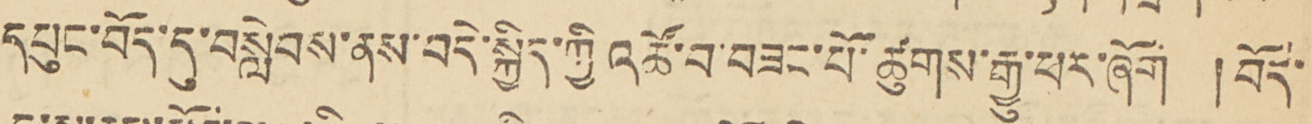དཔུང་བོད་དུ་བསླེབས་ནས་བདེ་སྐྱིད་ཀྱི འཚོ་བ་བཟང་ཕོ་ཚུགས་རྒྱུ་པར་ཞོག །བོད་
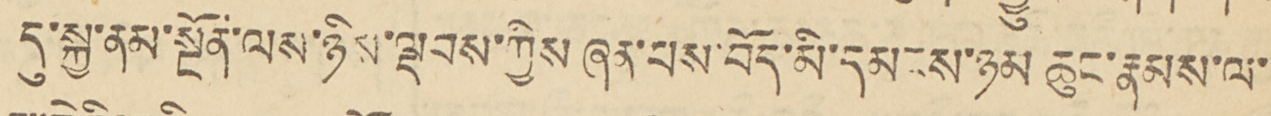དུ་སྐྱ་ནམ་སྔོན་ལས་ཉིས་ལྡབས་ཀྱིས ཞན་པས་བོད་མི་དམངས་ཉམ ཆུང་རྣམས་ལ་
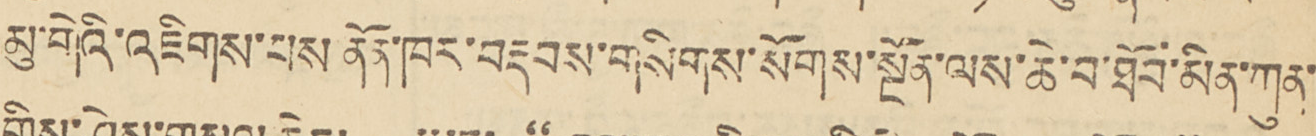མུ་གེའི་འཇིགས་པས ནོན་ཁར་བརྡབས་གསིགས་སོགས་སྔོན་ལས་ཆེ་བ་ཐོབ་མིན་ཀུན་
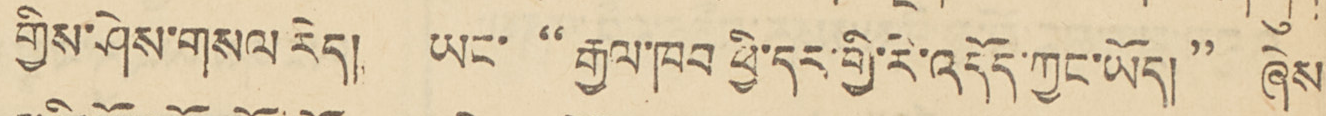གྱིས་ཤེས་གསལ རེད། ཡང་ "རྒྱལ་ཁབ ཕྱི་དར་གྱི་རི་འདོད་ཀྱང་ཡོད།" ཞེས་
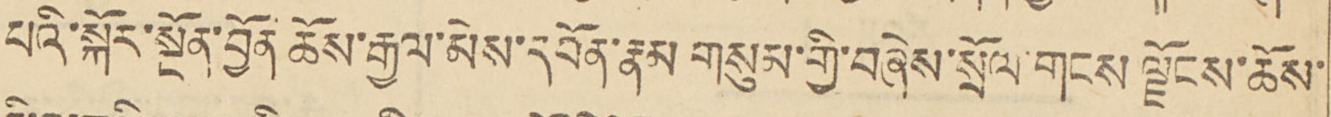པའི་སྐོར་སྔོན་བྱོན ཆོས་རྒྱལ་མེས་དཔོན་རྣམ གསུམ་གྱི་བཞེས་སྲོལ་གངས ལྗོངས་ཆོས་
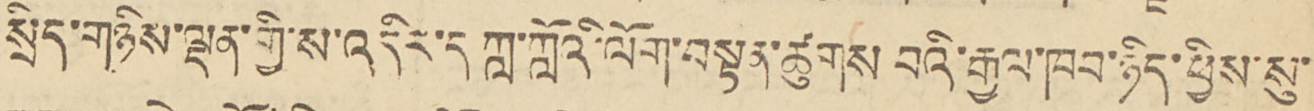སྲིད་གཉིས་ལྡན་གྱི་ས་འདིར་ད ཀླ་ཀློའི་ལོག་སྟན་ཚུགས པའི་རྒྱལ་ཁབ་ཉིད་ཕྱིས་སུ་
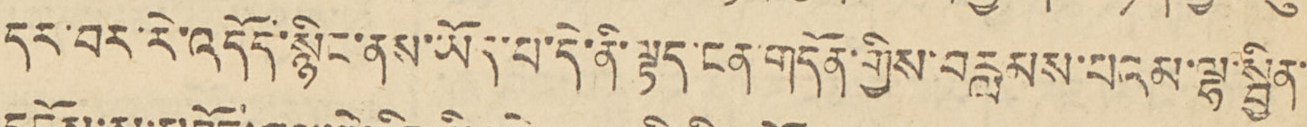དར་བར་རེ་འདོད་སྙིང་ནས་ཡིད་པ་དེ་ནི་ལྟད་ངན་གདོན་གྱིས་བརླམས་པའམ་ལྷ་སྦྱིན་
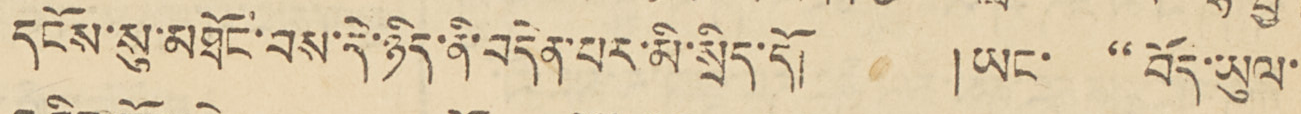དངོས་སུ་མཐོང་བས་དེ་ཉིད་ནི་བདེན་པར་མི་སྲིད་དོ། །ཡང་ "བོད་ཡུལ་
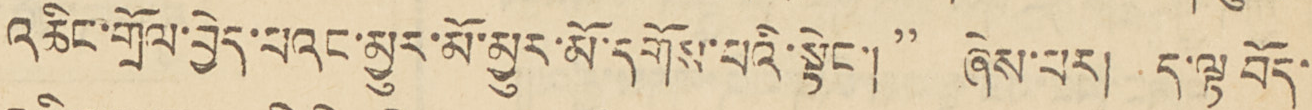འཆིང་གྲོལ་བྱེད་པའང་མྱུར་མོ་མྱུར་མི་དགོས་པའི་སྟེང་།" ཞེས་པར། ད་ལྟ བོད་
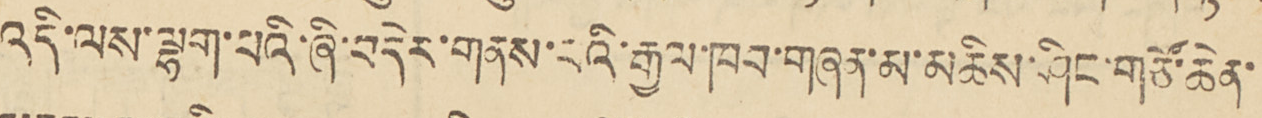འདི་ལས་ལྷག་པའི་ཞི་བདེར་གནས་ངའི་རྒྱལ་ཁབ་གཞན་མ་མཆིས་ཤིང་གཙོ་ཆེན་
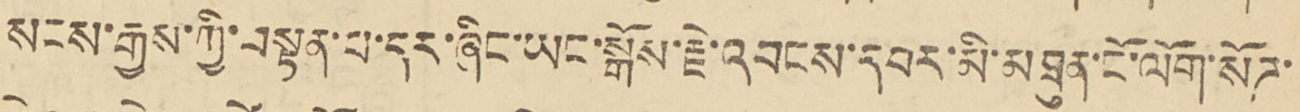སངས་རྒྱས་ཀྱི་བསྟན་པ་དར་ཞིང་ཡང་སྒོས་རྗེ་འབངས་དབར་མི་མཐུན་ངོ་ལོག་སོཌ་
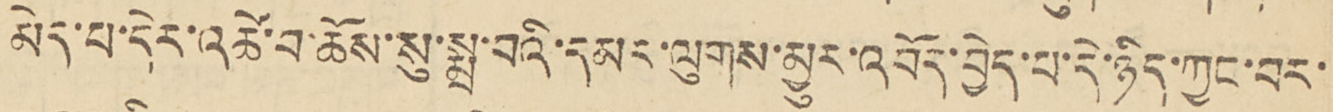མེད་པ་དེར་འཚེ་ན་ཆོས་སུ་སྨྲ་བའི་དམར་ལུགས་མྱུར་འབོད་བྱེད་པ་དེ་ཉིད་ཀྱང་བར་
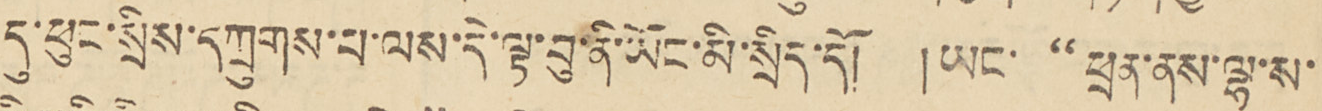དུ་ཕུང་སྲིས་དཀྲུགས་པ་ལས་དེ་ལྟ་བུ་ནི་ཡོང་མི་སྲིད་དོ། །ཡང་ "ཕྲན་ནས་ལྷ་ས་
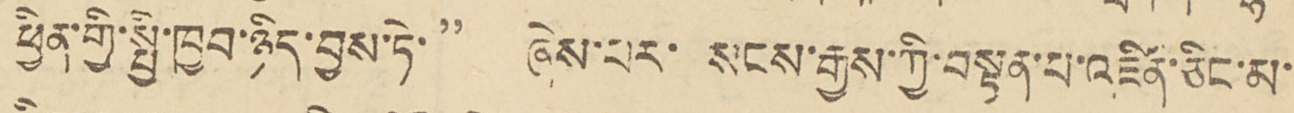ཕྱིན་གྱི་སྤྱི་ཁྱབ་ཉིད་བྱས་ཏེ་ " ཞེས་པར་སངས་རྒྱས་ཀྱི་བསྟན་པ་འཛིན་ཅིང་མ་
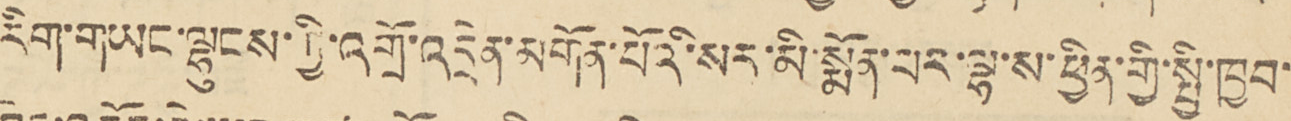རིག་གཡང་ལྷུངས་ཀྱི་འགྲོ་འདྲེན་མགོན་པོའི་སར་མི་སྨོན་པར་ལྷ་ས་ཕྱིན་གྱི་སྤྱི་ཁྱབ་
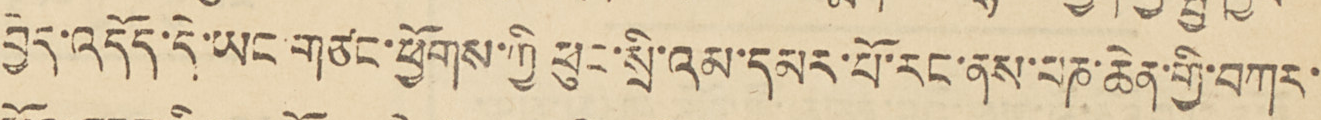བྱེད་འདོད་དེ་ཡང་གཙང་ཕྱོགས་ཀྱི ཕུང་སྲི་འམ་དམར་པོ་རང་ནས་པཎ་ཆེན་གྱི་བཀར་
